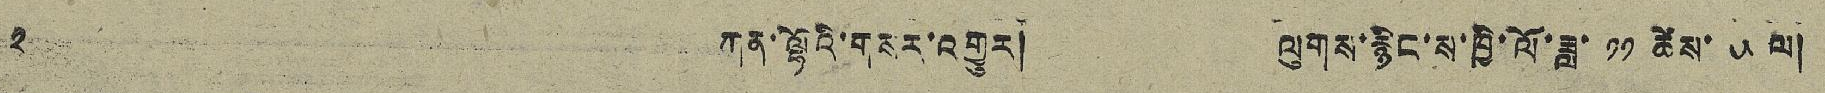༢ ཀན་ལྷོའི་གསར་འགྱུར། ལུགས་རྙིང་ས་ཁྱི་ལོ་ཟླ་ ༡༡ ཚེས་ ༥ ལ།
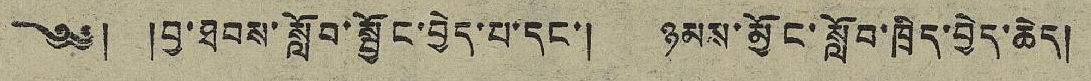༄༅། །བྱ་ཐབས་སློབ་སྦྱོང་བྱེད་པ་དང་། ཉམས་མྱོང་སློབ་ཁྲིད་བྱེད་ཆེད།
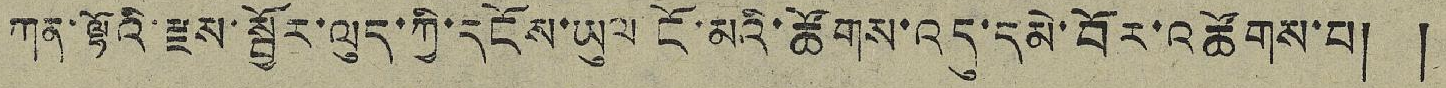ཀན་ལྷོའི་རྫས་སྦྱོར་ལུད་ཀྱི་དངོས་ཡུལ ངོ་མའི་ཚོགས་འདུ་དམེ་བོར་འཚོགས་པ། །
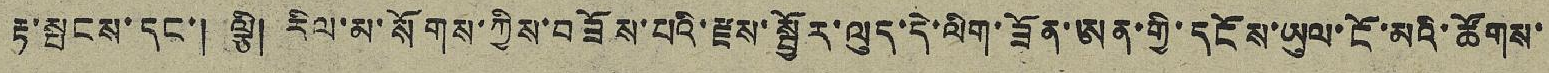རྟ་སྦངས་དང་། ལྕི། རིལ་མ་སོགས་ཀྱིས་བཟོས་པའི་རྫས་སྦྱོར་ལུད་དེ་ལིག་ཟོན་ཨན་གྱི་དངོས་ཡུལ་ངོ་མའི་ཚོགས་
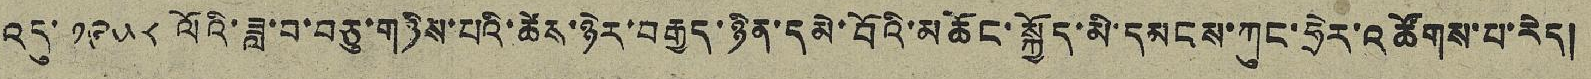འདུ་ ༡༩༥༨ ལོའི་ཟླ་བ་བཅུ་གཉིས་པའི་ཚེས་ཉེར་བརྒྱད་ཉིན་དམེ་བོའི་མཆོང་སྐྱོད་མི་དམངས་ཀུང་ཧྲེར་འཚོགས་པ་རེད།
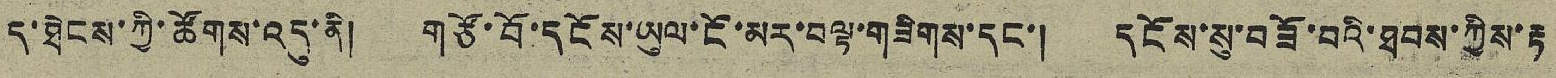ད་ཐེངས་ཀྱི་ཚོགས་འདུ་ནི། གཙོ་བོ་དངོས་ཡུལ་ངོ་མར་བལྟ་གཟིགས་དང་། དངོས་སུ་བཟོ་བའི་ཐབས་ཀྱིས་རྟ
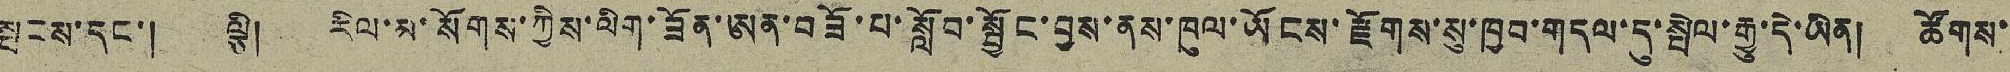སྦངས་དང་། ལྕི། རིལ་མ་སོགས་ཀྱིས་ལིག་ཟོན་ཨན་བཟོ་པ་སློབ་སྦྱོང་བྱས་ནས་ཁུལ་ཡོངས་རྫོགས་སུ་ཁྱབ་གདལ་དུ་སྤེལ་རྒྱུ་དེ་ཡིན། ཚོགས་
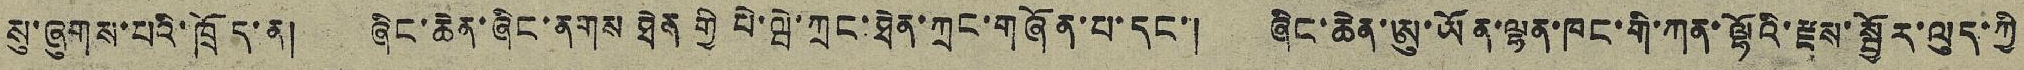སུ་ཞུགས་པའི་ཁྲོད་ན། ཞིང་ཆེན་ཞིང་ནགས་ཐེན་གྱི་པེ་ལྦེ་ཀྲང་ཐེན་ཀྲང་གཞོན་པ་དང་། ཞིང་ཆེན་ཨུ་ཡོན་ལྷན་ཁང་གི་ཀན་ལྷོའི་རྫས་སྦྱོར་ལུད་ཀྱི་
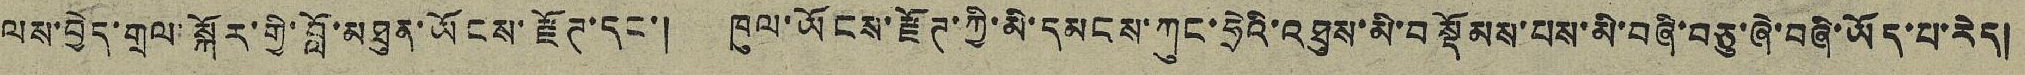ལས་བྱེད་གྲལ་སྐོར་གྱི་བློ་མཐུན་ཡོངས་རྫོཊ་དང་། ཁུལ་ཡོངས་རྫོཊ་ཀྱི་མི་དམངས་ཀུང་ཧྲེའི་འཐུས་མི་བསྡོམས་པས་མི་བཞི་བཅུ་ཞེ་བཞི་ཡོད་པ་རེད།
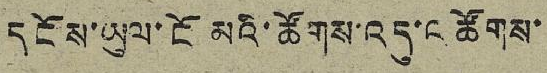དངོས་ཡུལ་ངོ་མའི་ཚོགས་འདུ་འཚོགས་
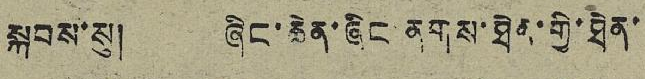སྐབས་སུ། ཞིང་ཆེན་ཞིང་ནགས་ཐེན་གྱི་ཐེན་
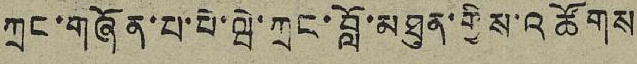ཀྲང་གཞོན་པ་པེ་ལྦེ་ཀྲང་བློ་མཐུན་གྱིས་འཚོགས
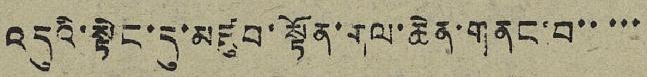འདུའི་སྟེང་དུ་མཛུབ་སྟོན་གལ་ཆེན་གནང་བ་་་་་
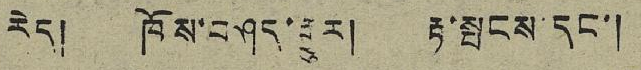རེད། ཁོས་བཤད་གྱུར། རྟ་སྤངས་དང་།
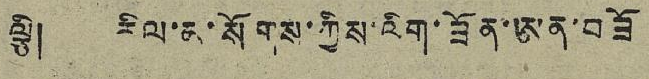ལྕི། རིལ་མ་སོགས་ཀྱིས་ལིག་ཟོན་ཨན་བཟོ
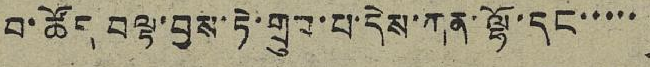བ་ཚོད་བལྟ་བྱས་ཏེ་གྲུབ་པ་དེས་ཀན་ལྷོ་དང་་་་་
